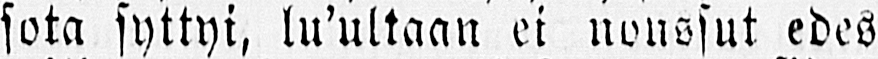sota syttyi, lu'ultaan ei noussut edes
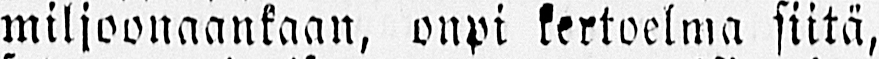miljoonaankaan, onpi kertoelma siitä,
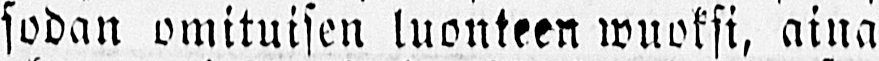sodan omituisen luonteen wuoksi, aina
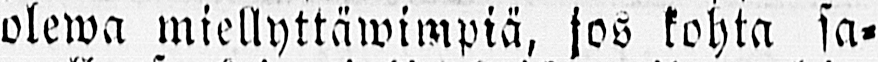olewa miellyttäwimpiä, jos kohta sa-
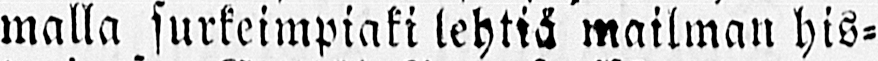malla surkeimpiaki lehtiä mailman his-
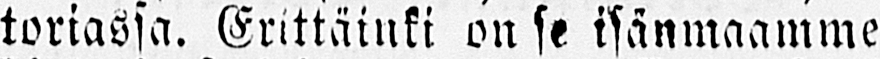toriassa. Erittäinki on se isänmaamme
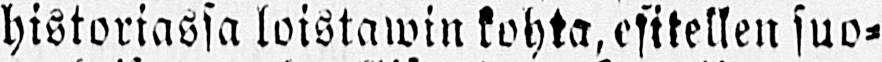historiassa loistawin kohta, esitellen suo-
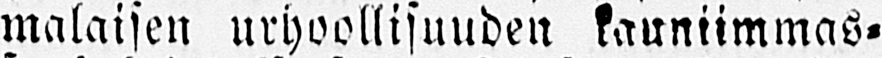malaisen urhoollisuuden kauniimmas-
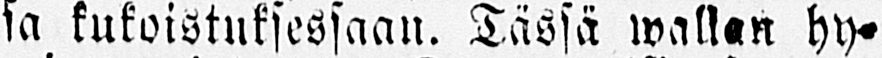sa kukoistuksessaan. Tässä wallan hy -
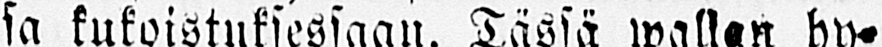win muistamme Suomalaisia seuran-
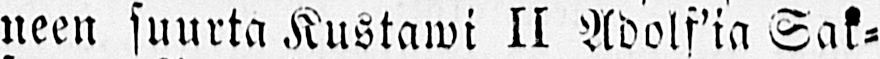neen suurta Kustawi II Adolf'ia Sak-
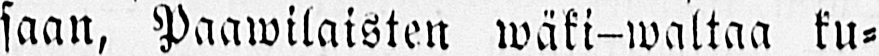saan, Paawilaisten wäki-waltaa ku-
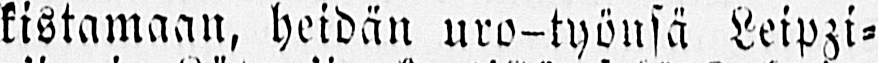kistamaan, heidän uro-työnsä Leipzi-
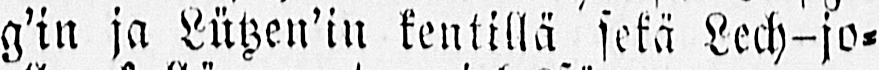gin ja Lützen'in kentillä sekä Lech-jo-
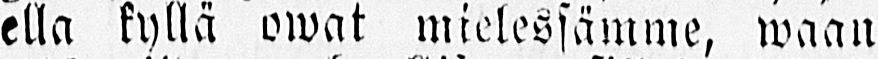ella kyllä owat mielessämme, waan
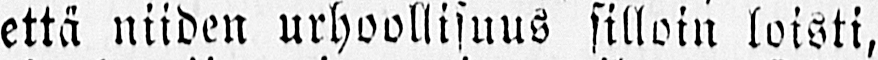että niiden urhoollisuus silloin loisti,
